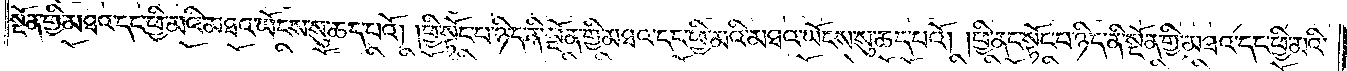སྔོན་གྱི་མཐའ་དང་ཕྱི་མའི་མཐའ་ཡོངས་སུ་ཆད་པའོ། །ཕྱི་སྟོང་པ་ཉིད་ནི་སྔོན་གྱི་མཐའ་དང་ཕྱི་མའི་མཐའ་ཡོངས་སུ་ཆད་པའོ། །ཕྱི་ནང་སྟོང་པ་ཉིད་ནི་སྔོན་གྱི་མཐའ་དང་ཕྱི་མའི་
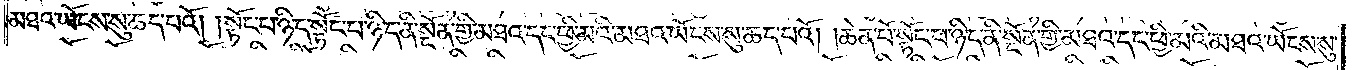མཐའ་ཡོངས་སུ་ཆད་པའོ། །སྟོང་པ་ཉིད་སྟོང་པ་ཉིད་ནི་སྔོན་གྱི་མཐའ་དང་ཕྱི་མའི་མཐའ་ཡོངས་སུ་ཆད་པའོ། །ཆེན་པོ་སྟོང་པ་ཉིད་ནི་སྔོན་གྱི་མཐའ་དང་ཕྱི་མའི་མཐའ་ཡོངས་སུ་
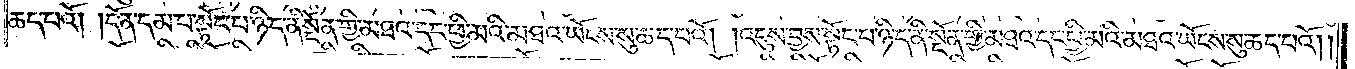ཆད་པའོ། །དོན་དམ་པ་སྟོང་པ་ཉིད་ནི་སྔོན་གྱི་མཐའ་དང་ཕྱི་མའི་མཐའ་ཡོངས་སུ་ཆད་པའོ། །འདུས་བྱས་སྟོང་པ་ཉིད་ནི་སྔོན་གྱི་མཐའ་དང་ཕྱི་མའི་མཐའ་ཡོངས་སུ་ཆད་པའོ། །
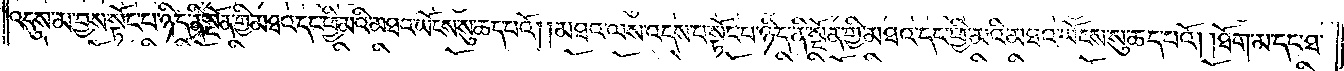འདུས་མ་བྱས་སྟོང་པ་ཉིད་ནི་སྔོན་གྱི་མཐའ་དང་ཕྱི་མའི་མཐའ་ཡོངས་སུ་ཆད་པའོ། །མཐའ་ལས་འདས་པ་སྟོང་པ་ཉིད་ནི་སྔོན་གྱི་མཐའ་དང་ཕྱི་མའི་མཐའ་ཡོངས་སུ་ཆད་པའོ། །ཐོག་མ་དང་ཐ་
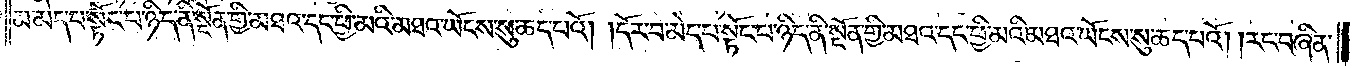མ་མེད་པ་སྟོང་པ་ཉིད་ནི་སྔོན་གྱི་མཐའ་དང་ཕྱི་མའི་མཐའ་ཡོངས་སུ་ཆད་པའོ། །དོར་བ་མེད་པ་སྟོང་པ་ཉིད་ནི་སྔོན་གྱི་མཐའ་དང་ཕྱི་མའི་མཐའ་ཡོངས་སུ་ཆད་པའོ། །རང་བཞིན་
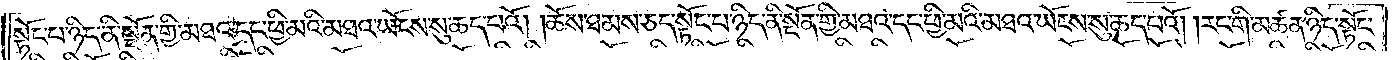སྟོང་པ་ཉིད་ནི་སྔོན་གྱི་མཐའ་དང་ཕྱི་ཕ་མའི་མཐའ་ཡོངས་སུ་ཆད་པའོ། །ཆོས་ཐམས་ཅད་སྟོང་པ་ཉིད་ནི་སྔོན་གྱི་མཐའ་དང་ཕྱི་མའི་མཐའ་ཡོངས་སུ་ཆད་པའོ། །རང་གི་མཚན་ཉིད་སྟོང་
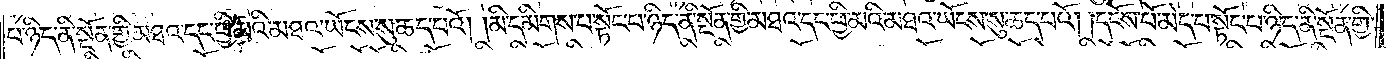པ་ཉིད་ནི་སྔོན་གྱི་མཐའ་དང་ཕྱི་མའི་མཐའ་ཡོངས་སུ་ཆད་པའོ། །མི་དམིགས་པ་སྟོང་པ་ཉིད་ནི་སྔོན་གྱི་མཐའ་དང་ཕྱི་མའི་མཐའ་ཡོངས་སུ་ཆད་པའོ། །དངོས་པོ་མེད་པ་སྟོང་པ་ཉིད་ནི་སྔོན་གྱི་
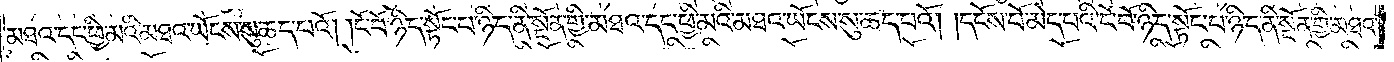མཐའ་དང་ཕྱི་མའི་མཐའ་ཡོངས་སུ་ཆད་པའོ། །ངོ་བོ་ཉིད་སྟོང་པ་ཉིད་ནི་སྔོན་གྱི་མཐའ་དང་ཕྱི་མའི་མཐའ་ཡོངས་སུ་ཆད་པའོ། །དངོས་པོ་མེད་པའི་ངོ་བོ་ཉིད་སྟོང་པ་ཉིད་ནི་སྔོན་གྱི་མཐའ་
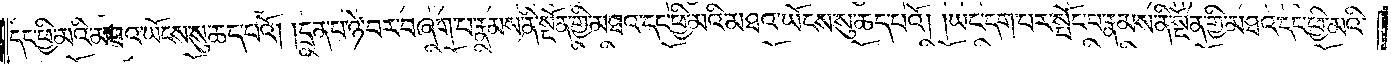དང་ཕྱི་མའི་མཐའ་ཡོངས་སུ་ཆད་པའོ། །དྲན་པ་ཉེ་བར་བཞག་པ་རྣམས་ནི་སྔོན་གྱི་མཐའ་དང་ཕྱི་མའི་མཐའ་ཡོངས་སུ་ཆད་པའོ། །ཡང་དག་པར་སྤོང་བ་རྣམས་ནི་སྔོན་གྱི་མཐའ་དང་ཕྱི་མའི་
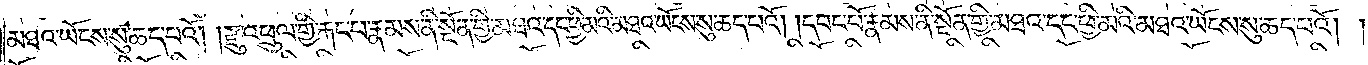མཐའ་ཡོངས་སུ་ཆད་པའོ། །རྫུ་འཕྲུལ་གྱི་རྐང་པ་རྣམས་ནི་སྔོན་གྱི་མཐའ་དང་ཕྱི་མའི་མཐའ་ཡོངས་སུ་ཆད་པའོ། །དབང་པོ་རྣམས་ནི་སྔོན་གྱི་མཐའ་དང་ཕྱི་མའི་མཐའ་ཡོངས་སུ་ཆད་པའོ། །
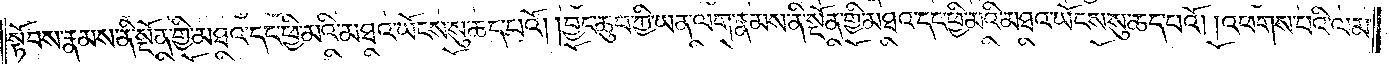སྟོབས་རྣམས་ནི་སྔོན་གྱི་མཐའ་དང་ཕྱི་མའི་མཐའ་ཡོངས་སུ་ཆད་པའོ། །བྱང་ཆུབ་ཀྱི་ཡན་ལག་རྣམས་ནི་སྔོན་གྱི་མཐའ་དང་ཕྱི་མའི་མཐའ་ཡོངས་སུ་ཆད་པའོ། །འཕགས་པའི་ལམ་
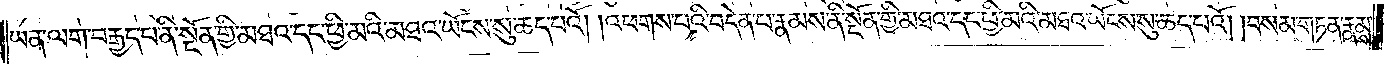ཡན་ལག་བརྒྱད་པ་ནི་སྔོན་གྱི་མཐའ་དང་ཕྱི་མའི་མཐའ་ཡོངས་སུ་ཆད་པའོ། །འཕགས་པའི་བདེན་པ་རྣམས་ནི་སྔོན་གྱི་མཐའ་དང་ཕྱི་མའི་མཐའ་ཡོངས་སུ་ཆད་པའོ། །བསམ་གཏན་རྣམས་
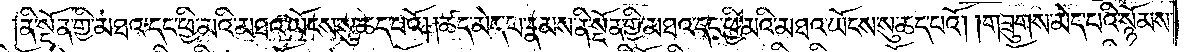ནི་སྔོན་གྱི་མཐའ་དང་ཕྱི་མའི་མཐའ་ཡོངས་སུ་ཆད་པའོ། །ཚད་མེད་པ་རྣམས་ནི་སྔོན་གྱི་མཐའ་དང་ཕྱི་མའི་མཐའ་ཡོངས་སུ་ཆད་པའོ། །གཟུགས་མེད་པའི་སྙོམས་
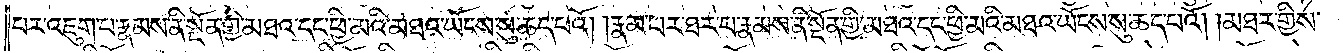པར་འཇུག་པ་རྣམས་ནི་སྔོན་གྱི་མཐའ་དང་ཕྱི་མའི་མཐའ་ཡོངས་སུ་ཆད་པའོ། །རྣམ་པར་ཐར་པ་རྣམས་ནི་སྔོན་གྱི་མཐའ་དང་ཕྱི་མའི་མཐའ་ཡོངས་སུ་ཆད་པའོ། །མཐར་གྱིས་
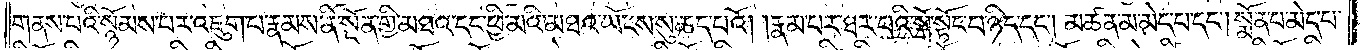གནས་པའི་སྙོམས་པར་འཇུག་པ་རྣམས་ནི་སྔོན་གྱི་མཐའ་དང་ཕྱི་མའི་མཐའ་ཡོངས་སུ་ཆད་པའོ། །རྣམ་པར་ཐར་པའི་སྒོ་སྟོང་པ་ཉིད་དང༌། མཚན་མ་མེད་པ་དང༌། སྨོན་པ་མེད་པ་
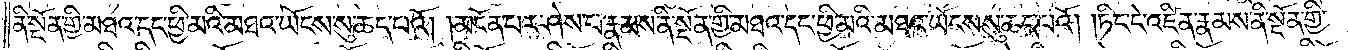ནི་སྔོན་གྱི་མཐའ་དང་ཕྱི་མའི་མཐའ་ཡོངས་སུ་ཆད་པའོ། །མངོན་པར་ཤེས་པ་རྣམས་ནི་སྔོན་གྱི་མཐའ་དང་ཕྱི་མའི་མཐའ་ཡོངས་སུ་ཆད་པའོ། །ཏིང་ངེ་འཛིན་རྣམས་ནི་སྔོན་གྱི་
